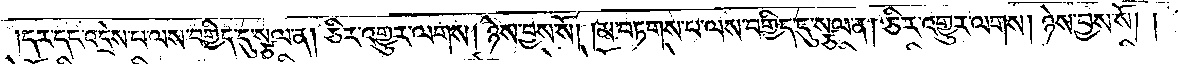།དར་དང་འདྲེས་པ་ལས་བགྱིད་དུ་སྩལ་ན། ཅིར་འགྱུར་ལགས། ཉེས་བྱས་སོ། །མ་བཏགས་པ་ལས་བགྱིད་དུ་སྩལ་ན། ཅིར་འགྱུར་ལགས། ཉེས་བྱས་སོ། །
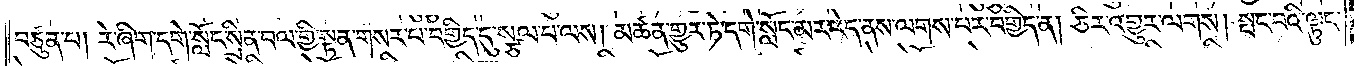བཙུན་པ། རེ་ཞིག་དགེ་སློང་སྲིན་བལ་གྱི་སྟན་གསར་པ་བགྱིད་དུ་སྩལ་པ་ལས། མཚན་གྱུར་ཏེ་དགེ་སློང་མར་རེད་ནས་ལགས་པར་བགྱིད་ན། ཅིར་འགྱུར་ལགས། སྤང་བའི་ལྟུང་
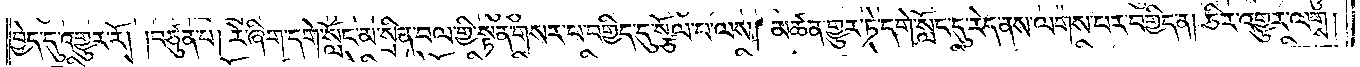བྱེད་དུ་འགྱུར་རོ། །བཙུན་པ། རེ་ཞིག་དགེ་སློང་མ་སྲིན་བལ་གྱི་སྟན་གསར་པ་བགྱིད་དུ་སྩོལ་པ་ལས། མཚན་གྱུར་ཏེ་དགེ་སློང་དུ་རེད་ནས་ལགས་པར་བགྱིད་ན། ཅིར་འགྱུར་ལགས།
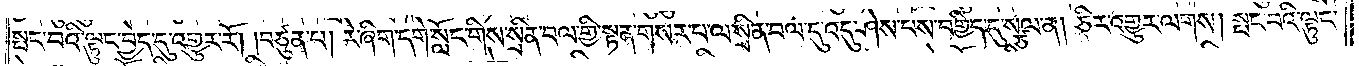སྤང་བའི་ལྟུང་བྱེད་དུ་འགྱུར་རོ། །བཙུན་པ། རེ་ཞིག་དགེ་སློང་གིས་སྲིན་བལ་གྱི་སྟན་གསར་པ་ལ་སྲིན་བལ་དུ་འདུ་ཤེས་པས་བགྱིད་དུ་སྩལ་ན། ཅིར་འགྱུར་ལགས། སྤང་བའི་ལྟུང་
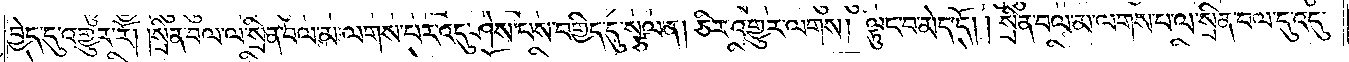བྱེད་དུ་འགྱུར་རོ། །སྲིན་བལ་ལ་སྲིན་བལ་མ་ལགས་པར་འདུ་ཤེས་པས་བགྱིད་དུ་སྩལ་ན། ཅིར་འགྱུར་ལགས། ལྟུང་བ་མེད་དོ། །སྲིན་བལ་མ་ལགས་པ་ལ་སྲིན་བལ་དུ་འདུ་
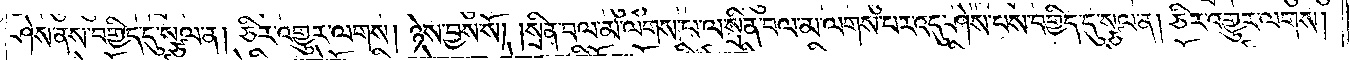ཤེས་ནས་བགྱིད་དུ་སྩལ་ན། ཅིར་འགྱུར་ལགས། ཉེས་བྱས་སོ། །སྲིན་བལ་མ་ལགས་པ་ལ་སྲིན་བལ་མ་ལགས་པར་འདུ་ཤེས་པས་བགྱིད་དུ་སྩལ་ན། ཅིར་འགྱུར་ལགས།
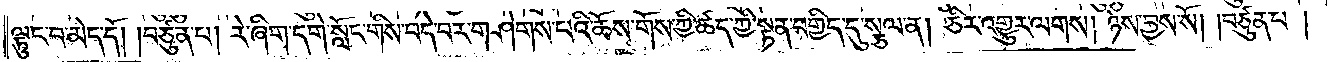ལྟུང་བ་མེད་དོ། །བཙུན་པ། རེ་ཞིག་དགེ་སློང་གིས་བདེ་བར་གཤེགས་པའི་ཆོས་གོས་ཀྱི་ཚད་ཀྱི་སྟན་བགྱིད་དུ་སྩལ་ན། ཅིར་འགྱུར་ལགས། ཉེས་བྱས་སོ། །བཙུན་པ།
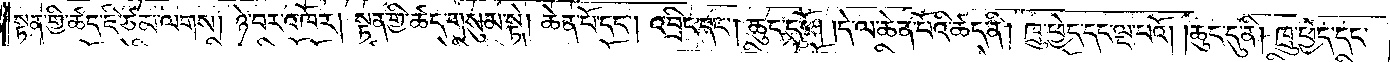སྟན་གྱི་ཚད་ཇི་ཙམ་ལགས། ཉེ་བར་འཁོར། སྟན་གྱི་ཚད་གསུམ་སྟེ། ཆེན་པོ་དང༌། འབྲིང་དང༌། ཆུང་ངུའོ། །དེ་ལ་ཆེན་པོའི་ཚད་ནི། ཁྲུ་ཕྱེད་དང་ལྔ་པོའི། །ཆུང་ངུ་ནི། ཁྲུ་ཕྱེད་དང་
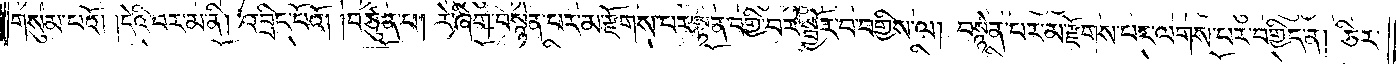གསུམ་པའོ། །དེའི་བར་མ་ནི། འབྲིང་པོའོ། །བཙུན་པ། རེ་ཞིག་བསྙེན་པར་མ་རྫོགས་པར་སྟན་བགྱི་བར་སྦྱོར་བ་བགྱིས་ལ། བསྙེན་པར་མ་རྫོགས་པར་ལགས་པར་བགྱིད་ན། ཅིར་
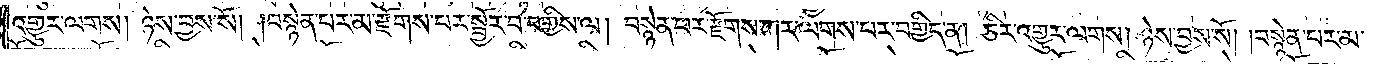འགྱུར་ལགས། ཉེས་བྱས་སོ། །བསྙེན་པར་མ་རྫོགས་པར་སྦྱོར་བ་བགྱིས་ལ། བསྙེན་པར་རྫོགས་ཀར་ལགས་པར་བགྱིད་ན། ཅིར་འགྱུར་ལགས། ཉེས་བྱས་སོ། །བསྙེན་པར་མ་
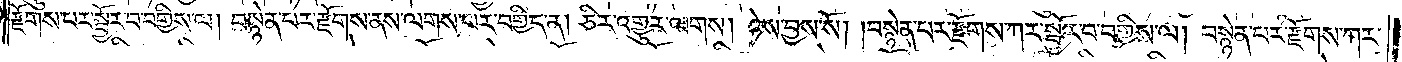རྫོགས་པར་སྦྱོར་བ་བགྱིས་ལ། བསྙེན་པར་རྫོགས་ནས་ལགས་པར་བགྱིད་ན། ཅིར་འགྱུར་ལགས། ཉེས་བྱས་སོ། །བསྙེན་པར་རྫོགས་ཀར་སྦྱོར་བ་བགྱིས་ལ། བསྙེན་པར་རྫོགས་ཀར་
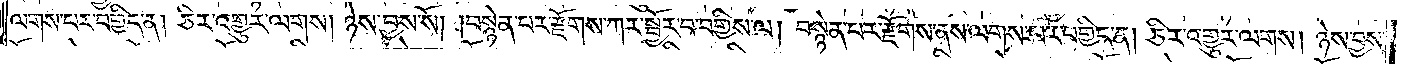ལགས་པར་བགྱིད་ན། ཅིར་འགྱུར་ལགས། ཉེས་བྱས་སོ། །བསྙེན་པར་རྫོགས་ཀར་སྦྱོར་བ་བགྱིས་ལ། བསྙེན་པར་རྫོགས་ནས་ལགས་པར་བགྱིད་ན། ཅིར་འགྱུར་ལགས། ཉེས་བྱས་
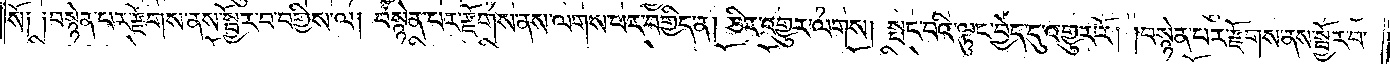སོ༑ ༑བསྙེན་པར་རྫོགས་ནས་སྦྱོར་བ་བགྱིས་ལ། བསྙེན་པར་རྫོགས་ནས་ལགས་པར་བགྱིད་ན། ཅིར་འགྱུར་ལགས། སྤང་བའི་ལྟུང་བྱེད་དུ་འགྱུར་རོ། །བསྙེན་པར་རྫོགས་ནས་སྦྱོར་བ་
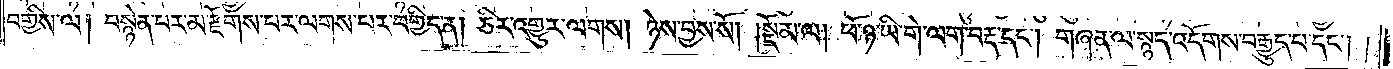བགྱིས་ལ། བསྙེན་པར་མ་རྫོགས་པར་ལགས་པར་བགྱིད་ན། ཅིར་འགྱུར་ལགས། ཉེས་བྱས་སོ།    །སྡོམ་ལ། ཕོ་ཉ་ཡི་གེ་ལག་བརྡ་དང༌། གཞན་ལ་སྙད་འདོགས་བརྒྱུད་པ་དང༌། །
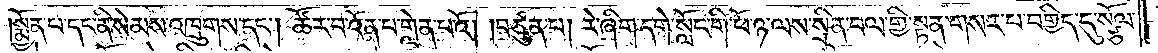།སྨྱོན་པ་དང་ནི་སེམས་འཁྲུགས་དང༌། ཚོར་བ་འོན་པ་གླེན་པའོ། །བཙུན་པ། རེ་ཞིག་དགེ་སློང་གི་ཕོ་ཉ་ལས་སྲིན་བལ་གྱི་སྟན་གསར་པ་བགྱིད་དུ་སྩོལ་
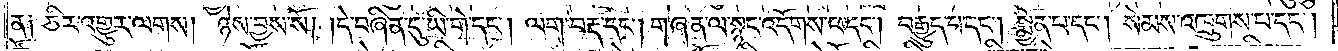ན༑ ཅིར་འགྱུར་ལགས། ཉེས་བྱས་སོ། །དེ་བཞིན་དུ་ཡི་གེ་དང༌། ལག་བརྡ་དང༌། གཞན་ལ་སྙང་འདོགས་པ་དང༌། བརྒྱུད་པ་དང༌། སྨྱོན་པ་དང༌། སེམས་འཁྲུགས་པ་དང༌།
